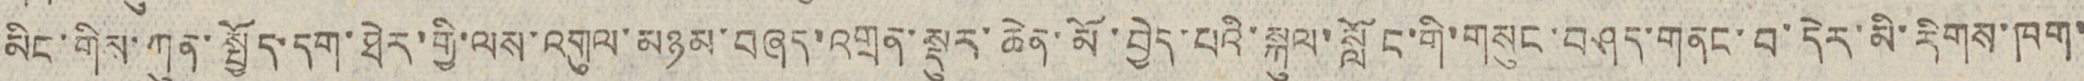མིང་གིས་ཀུན་སྤྱོད་དག་ཐེར་གྱི་ལས་འགུལ་མཉམ་བཞད་འགྲན་སྡུར་ཆེན་མོ་བྱེད་པའི་སྐུལ་སློང་གི་གསུང་བཤད་གནང་བ་དེར་མི་རིགས་ཁག་
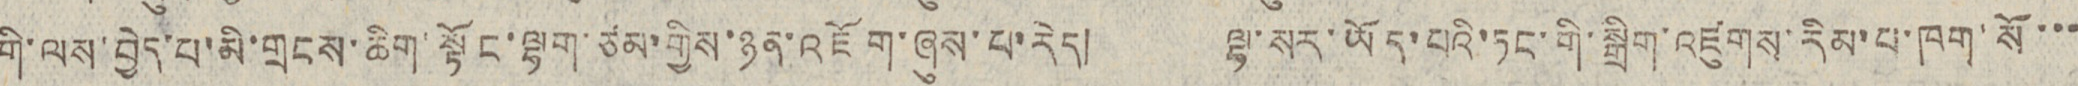གི་ལས་བྱེད་པ་མི་གྲངས་ཆིག་སྟོང་ལྷག་ཙམ་གྱིས་ཉན་འཇོག་ཞུས་པ་རེད། ལྷ་སར་ཡོད་པའི་ཏང་གི་སྒྲིག་འཛུགས་རིམ་པ་ཁག་སོ་་་
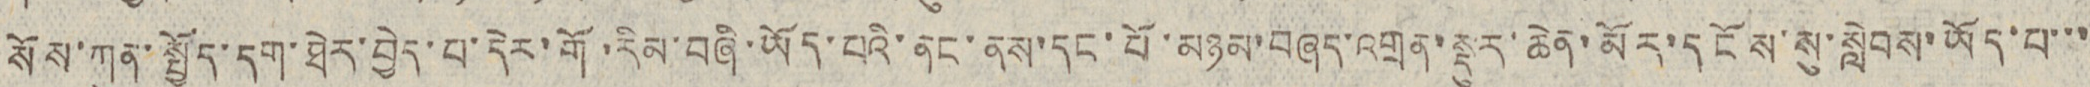སོས་ཀུན་སྤྱོད་དག་ཐེར་བྱེད་པ་དེར་གོ་རིམ་བཞི་ཡོད་པའི་ནང་ནས་དང་པོ་མཉམ་བཞད་འགྲན་སྡུར་ཆེན་མོར་དངོས་སུ་སླེབས་ཡོད་པ་་་
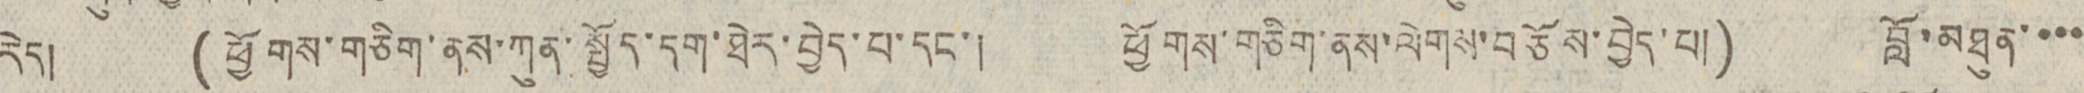རེད། (ཕྱོགས་གཅིག་ནས་ཀུན་སྤྱོད་དག་ཐེར་བྱེད་པ་དང་། ཕྱོགས་གཅིག་ནས་ལེགས་བཅོས་བྱེད་པ།) བློ་མཐུན་་་་
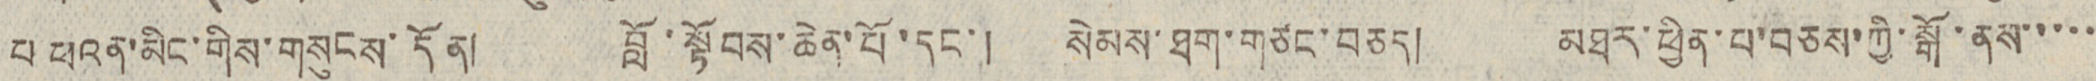པ ཕའན་མིང་གིས་གསུངས་དོན། བློ་སྟོབས་ཆེན་པོ་དང་། སེམས་ཐག་གཙང་བཅད་། མཐར་ཕྱིན་པ་བཅས་ཀྱི་སྒོ་ནས་་་་་
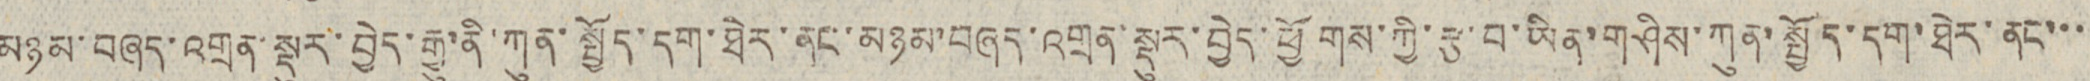མཉམ་བཞད་འགྲན་སྡུར་བྱེད་རྒྱུ་ནི་ཀུན་སྤྱོད་དག་ཐེར་ནང་མཉམ་བཞད་འགྲན་སྡུར་བྱེད་ཕྱོགས་ཀྱི་རྩ་བ་ཡིན་གཤིས་ཀུན་སྤྱོད་དག་ཐེར་ནང་་་
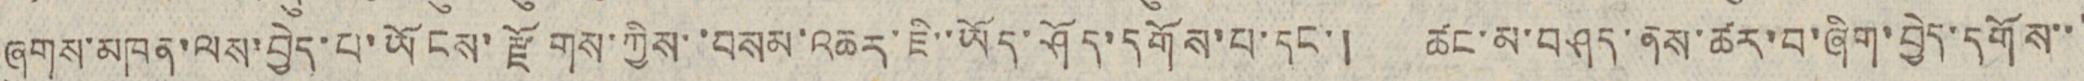ཞུགས་མཁན་ལས་བྱེད་པ་ཡོངས་རྫོགས་ཀྱིས་་བསམ་འཆར་ཇི་་ཡོད་ཤོད་དགོས་པ་དང་། ཚང་མ་བཤད་ནས་ཚར་བ་ཞིག་བྱེད་དགོས་་་
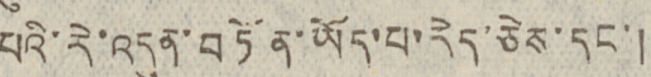པའི་རེ་འདུན་བཏོན་ཡོད་པ་རེད་ཅེས་དང་།
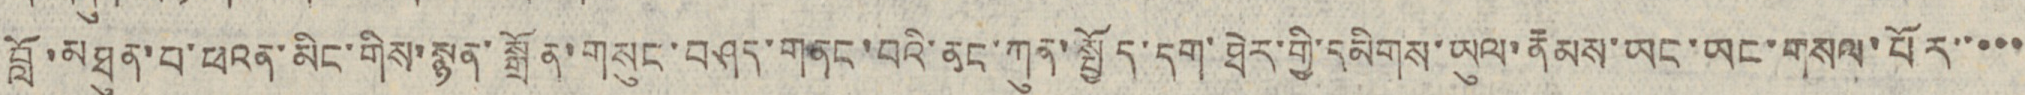བློ་མཐུན་པ་ཕའན་མིང་གིས་སྙན་སྒྲོན་གསུང་བཤད་གནང་བའི་ནང་ཀུན་སྤྱོད་དག་ཐེར་གྱི་དམིགས་ཡུལ་རྣམས་ཡང་ཡང་གསལ་པོར་་་་་
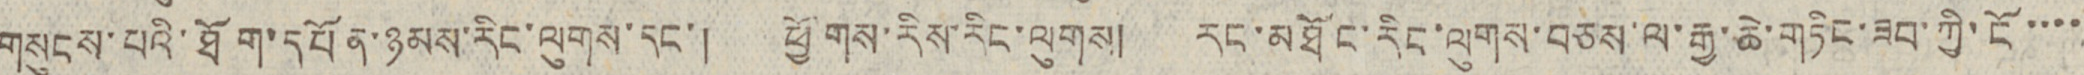གསུངས་པའི་ཐོག་དཔོན་ཉམས་རིང་ལུགས་དང་། ཕྱོགས་རིས་རིང་ལུགས། རང་མཐོང་རིང་ལུགས་བཅས་ལ་རྒྱ་ཆེ་གཏིང་ཟབ་ཀྱི་ངོ་་་་
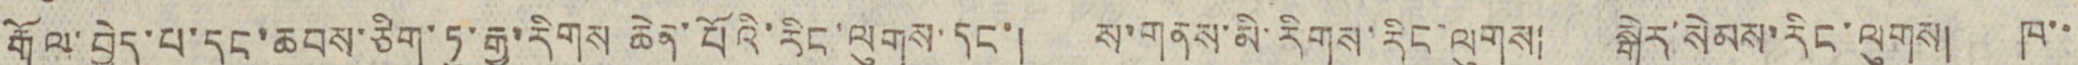རྒོལ་བྱེད་པ་དང་ཆབས་ཅིག་ཏུ་རྒྱ་རིགས ཆེན་པོའི་རིང་ལུགས་དང་། ས་གནས་མི་རིགས་རིང་ལུགས། སྒེར་སེམས་རིང་ལུགས། ཁ་་་
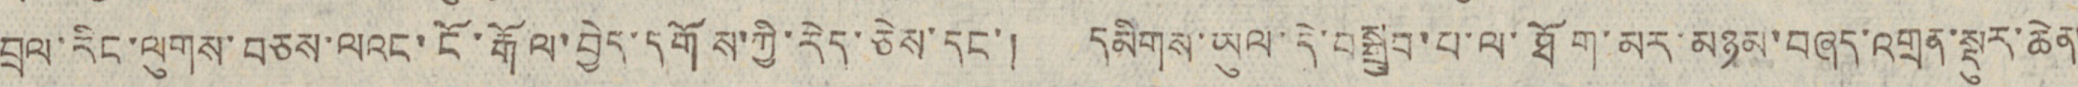བྲལ་རིང་ལུགས་བཅས་ལའང་ངོ་རྒོལ་བྱེད་དགོས་ཀྱི་རེད་ཅེས་དང་། དམིགས་ཡུལ་དེ་བསྒྲུབ་པ་ལ་ཐོག་མར་མཉམ་བཞད་འགྲན་སྡུར་ཆེན་
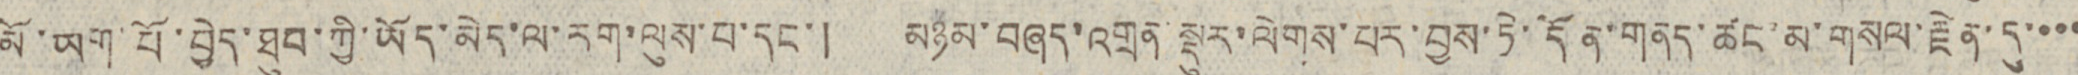མོ་ཡག་པོ་བྱེད་ཐུབ་ཀྱི་ཡོད་མེད་ལ་རག་ལུས་པ་དང་། མཉམ་བཞད་འགྲན་སྡུར་ལེགས་པར་བྱས་ཏེ་དོན་གནད་ཚང་མ་གསལ་རྗེན་དུ་་་་
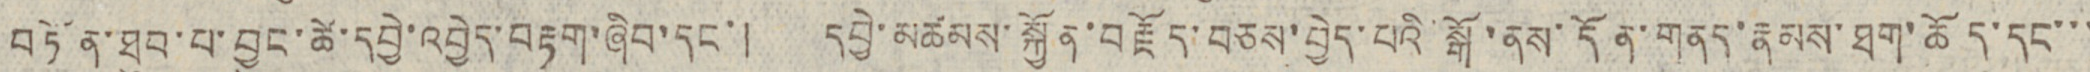བཏོན་ཐུབ་པ་བྱུང་ཚེ་དབྱེ་འབྱེད་བརྟག་ཞིབ་དང་། དབྱེ་མཚམས་སྐྱོན་བརྗོད་བཅས་བྱེད་པའི་སྒོ་ནས་དོན་གནད་རྣམས་ཐག་ཆོད་དང་་་
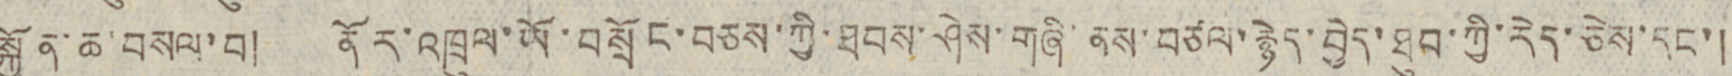སྐྱོན་ཆ་བསལ་བ། ནོར་འཁྲུལ་ཡོ་བསྲོང་བཅས་ཀྱི་ཐབས་ཤེས་གཞི་ནས་བཙལ་རྙེད་བྱེད་ཐུབ་ཀྱི་རེད་ཅེས་དང་།
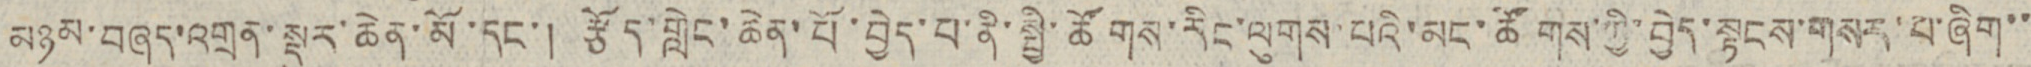མཉམ་བཞད་འགྲན་སྡུར་ཆེན་མོ་དང་། རྩོད་གླེང་ཆེན་པོ་བྱེད་པ་ནི་སྤྱི་ཚོགས་རིང་ལུགས་པའི་མང་ཚོགས་ཀྱི་བྱེད་སྟངས་གསར་པ་ཞིག་་
